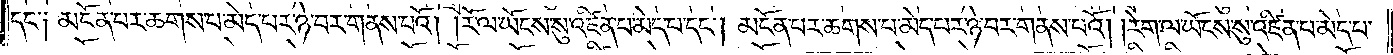དང༌༑ མངོན་པར་ཆགས་པ་མེད་པར་ཉེ་བར་གནས་པའོ། །རོ་ལ་ཡོངས་སུ་འཛིན་པ་མེད་པ་དང༌། མངོན་པར་ཆགས་པ་མེད་པར་ཉེ་བར་གནས་པའོ། །རེག་ལ་ཡོངས་སུ་འཛིན་པ་མེད་པ་
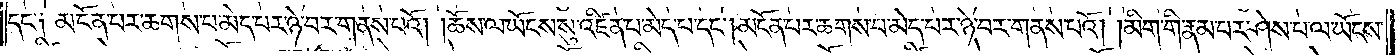དང༌༑ མངོན་པར་ཆགས་པ་མེད་པར་ཉེ་བར་གནས་པའོ། །ཆོས་ལ་ཡོངས་སུ་འཛིན་པ་མེད་པ་དང༌། མངོན་པར་ཆགས་པ་མེད་པར་ཉེ་བར་གནས་པའོ། །མིག་གི་རྣམ་པར་ཤེས་པ་ལ་ཡོངས་
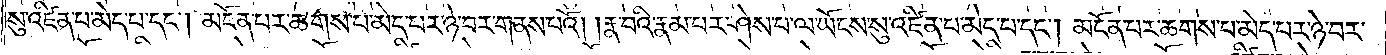སུ་འཛིན་པ་མེད་པ་དང༌། མངོན་པར་ཆགས་པ་མེད་པར་ཉེ་བར་གནས་པའོ། །རྣ་བའི་རྣམ་པར་ཤེས་པ་ལ་ཡོངས་སུ་འཛིན་པ་མེད་པ་དང༌། མངོན་པར་ཆགས་པ་མེད་པར་ཉེ་བར་
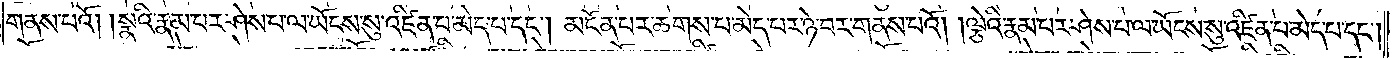གནས་པའོ། །སྣའི་རྣམ་པར་ཤེས་པ་ལ་ཡོངས་སུ་འཛིན་པ་མེད་པ་དང༌། མངོན་པར་ཆགས་པ་མེད་པར་ཉེ་བར་གནས་པའོ། །ལྕེའི་རྣམ་པར་ཤེས་པ་ལ་ཡོངས་སུ་འཛིན་པ་མེད་པ་དང༌།
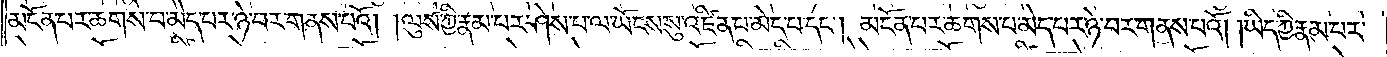མངོན་པར་ཆགས་པ་མེད་པར་ཉེ་བར་གནས་པའོ། །ལུས་ཀྱི་རྣམ་པར་ཤེས་པ་ལ་ཡོངས་སུ་འཛིན་པ་མེད་པ་དང༌། མངོན་པར་ཆགས་པ་མེད་པར་ཉེ་བར་གནས་པའོ། །ཡིད་ཀྱི་རྣམ་པར་
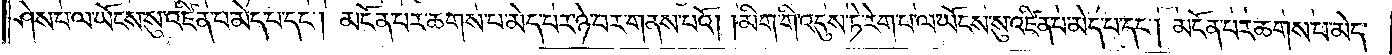ཤེས་པ་ལ་ཡོངས་སུ་འཛིན་པ་མེད་པ་དང༌། མངོན་པར་ཆགས་པ་མེད་པར་ཉེ་བར་གནས་པའོ། །མིག་གི་འདུས་ཏེ་རེག་པ་ལ་ཡོངས་སུ་འཛིན་པ་མེད་པ་དང༌། མངོན་པར་ཆགས་པ་མེད་
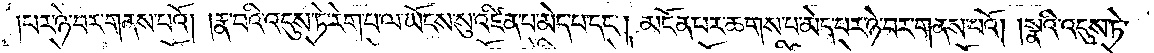པར་ཉེ་བར་ངས་པའོ། །རྣ་བའི་འདུས་ཏེ་རེག་པ་ལ་ཡོངས་སུ་འཛིན་པ་མེད་པ་དང༌། མངོན་པར་ཆགས་པ་མེད་པར་ཉེ་བར་གནས་པའོ། །སྣའི་འདུས་ཏེ་
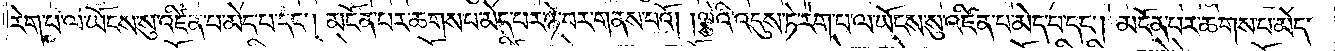རེག་པ་ལ་ཡོངས་སུ་འཛིན་པ་མེད་པ་དང༌། མངོན་པར་ཆགས་པ་མེད་པར་ཉེ་བར་གནས་པའོ། །ལྕེའི་འདུས་ཏེ་རེག་པ་ལ་ཡོངས་སུ་འཛིན་པ་མེད་པ་དང༌། མངོན་པར་ཆགས་པ་མེད་
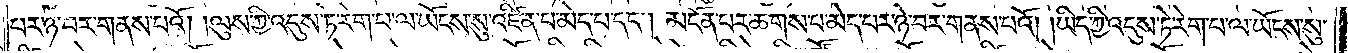པར་ཉེ་བར་གནས་པའོ། །ལུས་ཀྱི་འདུས་ཏེ་རེག་པ་ལ་ཡོངས་སུ་འཛིན་པ་མེད་པ་དང༌། མངོན་པར་ཆགས་པ་མེད་པར་ཉེ་བར་གནས་པའོ། །ཡིད་ཀྱི་འདུས་ཏེ་རེག་པ་ལ་ཡོངས་སུ་
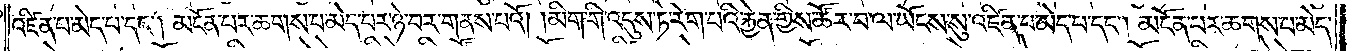འཛིན་པ་མེད་པ་དང༌། མངོན་པར་ཆགས་པ་མེད་པར་ཉེ་བར་གནས་པའོ། །མིག་གི་འདུས་ཏེ་རེག་པའི་རྐྱེན་གྱིས་ཚོར་བ་ལ་ཡོངས་སུ་འཛིན་པ་མེད་པ་དང༌། མངོན་པར་ཆགས་པ་མེད་
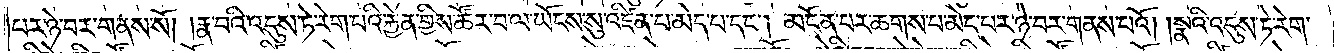པར་ཉེ་བར་གནས་པའོ། །རྣ་བའི་འདུས་ཏེ་རེག་པའི་རྐྱེན་གྱིས་ཚོར་བ་ལ་ཡོངས་སུ་འཛིན་པ་མེད་པ་དང༌། མངོན་པར་ཆགས་པ་མེད་པར་ཉེ་བར་གནས་པའོ། །སྣའི་འདུས་ཏེ་རེག་
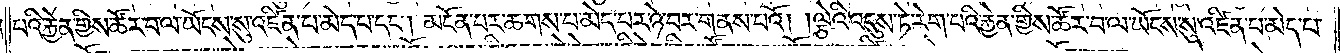པའི་རྐྱེན་གྱིས་ཚོར་བ་ལ་ཡོངས་སུ་འཛིན་པ་མེད་པ་དང༌། མངོན་པར་ཆགས་པ་མེད་པར་ཉེ་བར་གནས་པའོ། །ལྕེའི་འདུས་ཏེ་རེག་པའི་རྐྱེན་གྱིས་ཚོར་བ་ལ་ཡོངས་སུ་འཛིན་པ་མེད་པ་
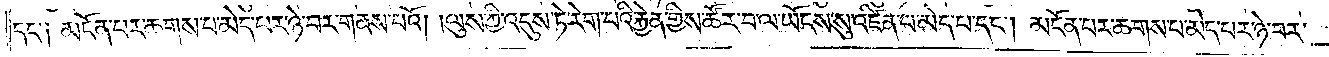དང༌༑ མངོན་པར་ཆགས་པ་མེད་པར་ཉེ་བར་གནས་པའོ། །ལུས་ཀྱི་འདུས་ཏེ་རེག་པའི་རྐྱེན་གྱིས་ཚོར་བ་ལ་ཡོངས་སུ་འཛིན་པ་མེད་པ་དང༌། མངོན་པར་ཆགས་པ་མེད་པར་ཉེ་བར་
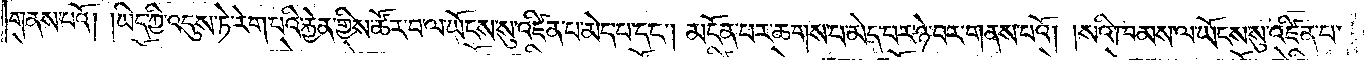གནས་པའོ། །ཡིད་ཀྱི་འདུས་ཏེ་རེག་པའི་རྐྱེན་གྱིས་ཚོར་བ་ལ་ཡོངས་སུ་འཛིན་པ་མེད་པ་དང༌། མངོན་པར་ཆགས་པ་མེད་པར་ཉེ་བར་གནས་པའོ། །སའི་ཁམས་ལ་ཡོངས་སུ་འཛིན་པ་
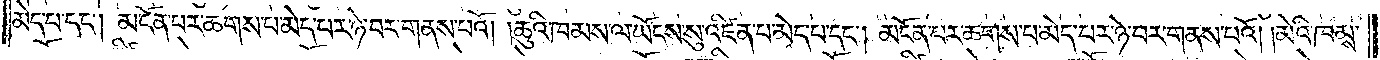མེད་པ་དང༌། མངོན་པར་ཆགས་པ་མེད་པར་ཉེ་བར་གནས་པའོ། །ཆུའི་ཁམས་ལ་ཡོངས་སུ་འཛིན་པ་མེད་པ་དང༌། མངོན་པར་ཆགས་པ་མེད་པར་ཉེ་བར་གནས་པའོ། །མེའི་ཁམས་
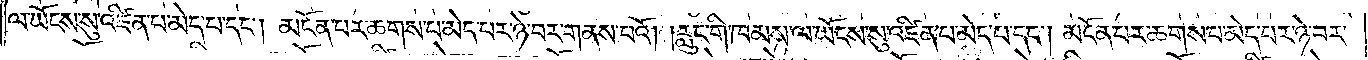ལ་ཡོངས་སུ་འཛིན་པ་མེད་པ་དང༌། མངོན་པར་ཆགས་པ་མེད་པར་ཉེ་བར་གནས་པའོ། །རླུང་གི་ཁམས་ལ་ཡོངས་སུ་འཛིན་པ་མེད་པ་དང༌། མངོན་པར་ཆགས་པ་མེད་པར་ཉེ་བར་
